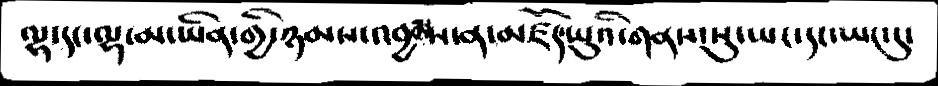ལྷ་དང་ལྷ་མ་ཡིན་གྱི་ཉམས་འབྱམས་ན་མཛོད་སྤུའི་གནས་སུ་ཡང་དང་ཡང་དུ་
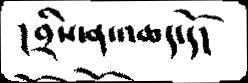།བྲིས་ན་འཆད་དོ།
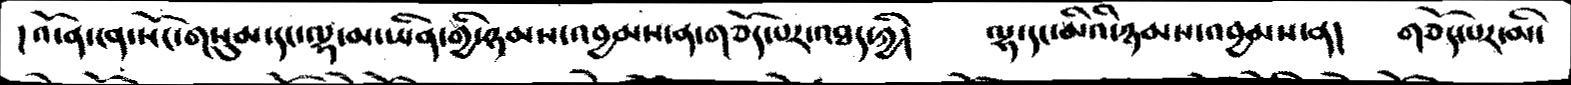།འོ་ན་ངན་སོང་གསུམ་དང་ལྷ་མ་ཡིན་གྱི་ཉམས་འབྱམས་ན་གཅོད་པར་འཐད་ཀྱི།   ལྷ་དང་མིའི་ཉམས་འབྱམས་ན།  གཅོད་པར་མི་
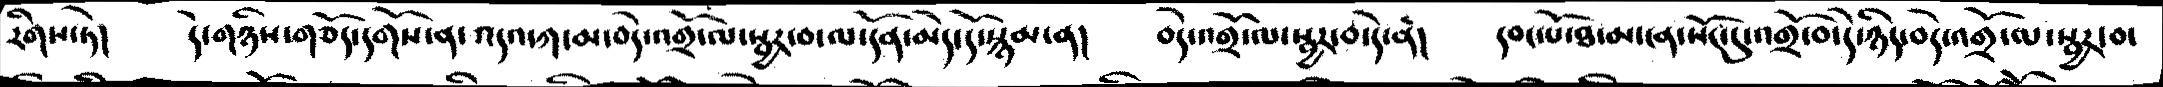རིགས་ཏེ།   དེ་གཉིས་གཅོད་དགོས་ན་འདའ་ཀ་མ་བདེ་འགྲོ་ལ་སྦྱར་བ་ལ་དོན་མེད་དོ་སྙམ་ན།    བདེ་འགྲོ་ལ་སྦྱར་བ་དེ་ནི།    དབང་པོ་ཐ་མ་ངན་སོང་དུ་འགྲོ་བ་དེ་ཉིད་བདེ་འགྲོ་ལ་སྦྱར་བ་
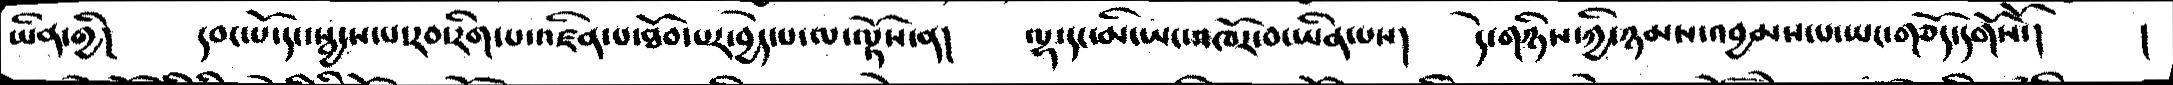ཡིན་གྱི།   དབང་པོ་དང་སྦྱངས་པ་རབ་རིག་པ་འཛིན་པ་ཐོབ་པར་བྱེད་པ་ལ་ལྟོས་ན།    ལྷ་དང་མི་ཡང་འཁོར་བ་ཡིན་པས།   དེ་གཉིས་ཀྱི་ཉམས་འབྱམས་པ་ཡང་གཅོད་དགོསོ།     །
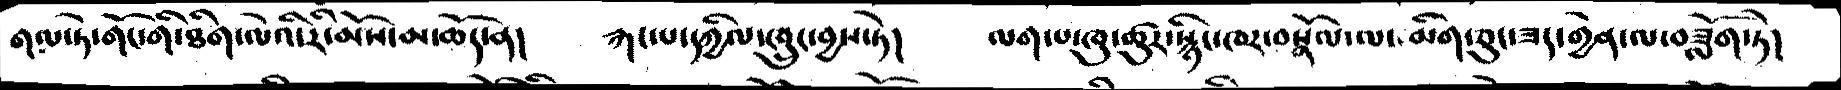གལ་ཏེ་གོང་གི་ཐིག་ལེའི་རི་མོས་མ་ཆོད་ན།    རྐང་པ་དཀྱིལ་ཁྲུང་བྱས་ཏེ།    ལག་པ་ཁུ་ཚུར་སྙིང་ཁར་བསྣོལ་ལ་མིག་ཅུང་ཟད་གྱེན་ལ་བཟློག་ཏེ།
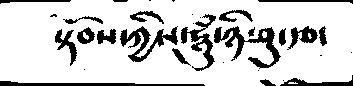སྟོབས་ཀྱིས་ཧྰུཾ་ཉི་ཤུ་རྩ་
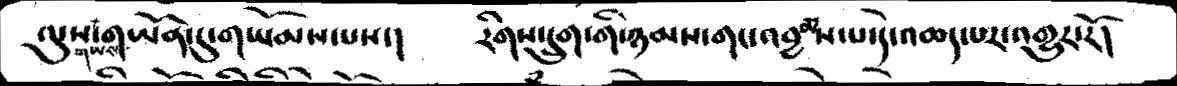ལུས་གཡས་གཡོན་དུ་གཡོམས་པས་།     རིགས་དྲུག་གི་ཉམས་གང་འབྱམས་པ་དེ་འཆད་པར་འགྱུར་རོ།
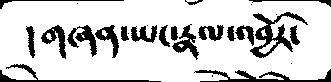། གཞན་ཡང་རྣལ་འབྱོར་
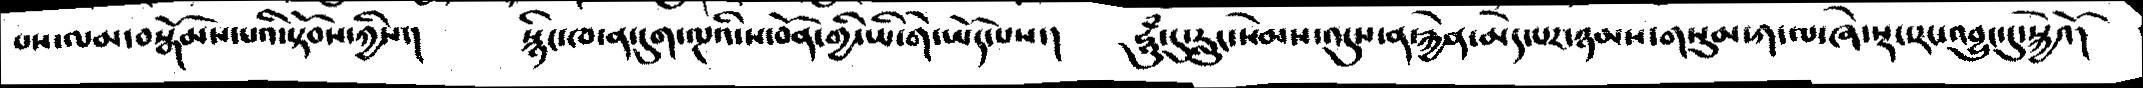པས་ལམ་བསྒོམས་པའི་སྟོབས་ཀྱིས་།    སྙིང་ཁ་ན་དུག་ལྔའི་ས་བོན་གྱི་ཡི་གེ་ཡོད་པས་།    ཧྰུཾ་དུ་རླུང་སེམས་འདུས་ན་རྐྱེན་མེད་པར་ཉམས་གསུམ་ཀ་ལ་ཞེ་སྡང་རང་འབྱུང་དུ་སྐྱེའོ།
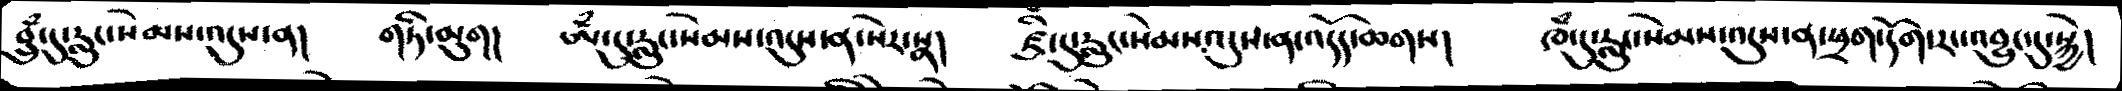བྲུཾ་དུ་རླུང་སེམས་འདུས་ན།   གཏི་མུག།  ཨཾ་དུ་རླུང་སེམས་འདུས་ན་སེར་སྣ།  ཛྲི་དུ་རླུང་སེམས་འདུས་ན་འདོད་ཆགས།   ཁཾ་དུ་རླུང་སེམས་འདུས་ན་ཕྲག་དོ་རང་འབྱུང་དུ་སྐྱེ།
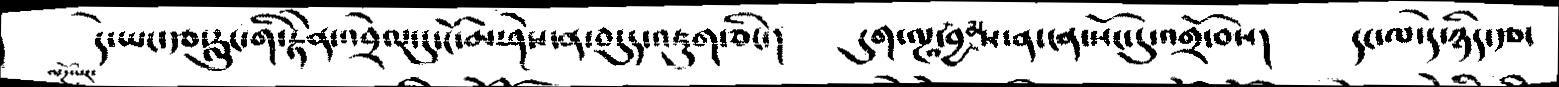དེ་ཡང་རྩ་རླུང་གི་རྟེན་འབྲེལ་དུ་ངོ་མ་ཤེས་ན་བདུད་འཇུག་ཅིང་།  དུག་ལྔ་འབྱམས་ན་ངན་སོང་དུ་འགྲོ་བས།
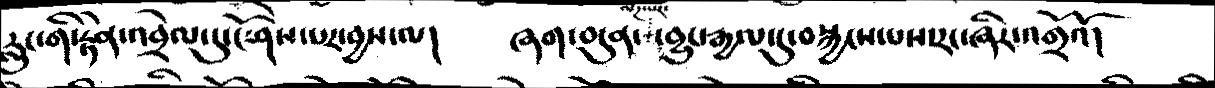རླུང་གི་རྟེན་འབྲེལ་དུ་ངོ་ཤེས་པར་བྱས་ལ།   ཞག་བདུན་ལེཌ་པར་བྱུང་རྒྱལ་དུ་བསྐྱངས་པས་རང་ཞིར་འགྲོའོ།
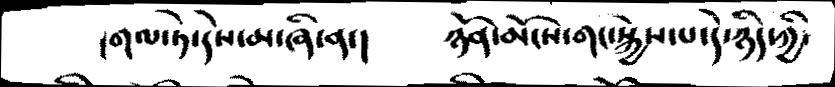།གལ་ཏེ་དེས་མ་ཞི་ན་།   ཉོན་མོངས་གང་སྐྱེས་པ་དེ་ཉིད་ཀྱི་
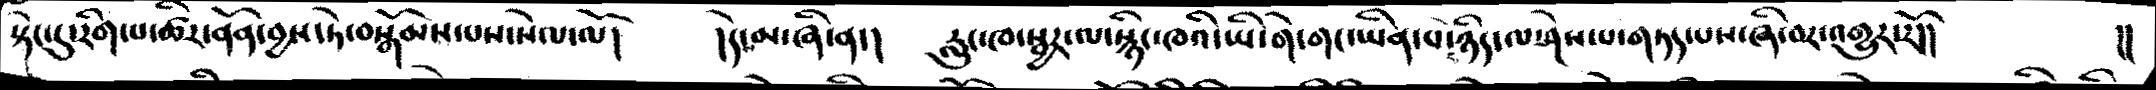སྟེང་དུ་རིག་པ་ཚིར་ནོན་བྱས་ཏ་བསྒོམས་པས་སེལ་ལོ།    །དེ་མ་ཞི་ན་།   རླུང་ཁ་སྦྱར་ལ་སྙིང་ཁའི་ཡི་གེ་གང་ཡིན་པ་ཉིད་ལ་ཤེས་པ་གཏད་པས་ཞི་བར་འགྱུར་རོ།།     །།
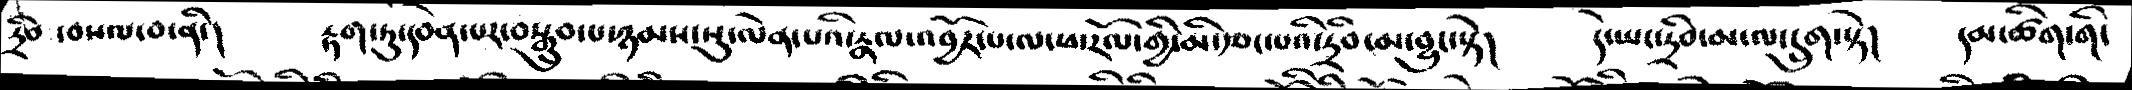དྲི་མ་བསལ་བ་ནི།   རྟག་ཏུ་དབེན་པར་བསྒྲུབ་པ་ཉམས་སུ་ལེན་པའི་རྣལ་འབྱོར་པ་ལ་ཕ་རོལ་གྱི་མ་རྩང་པའི་དྲིབ་མ་བྱུང་སྟེ།    དེ་ཡང་དྲིབ་མ་ལ་དྲུག་སྟེ།   དམ་ཚིག་གི་
